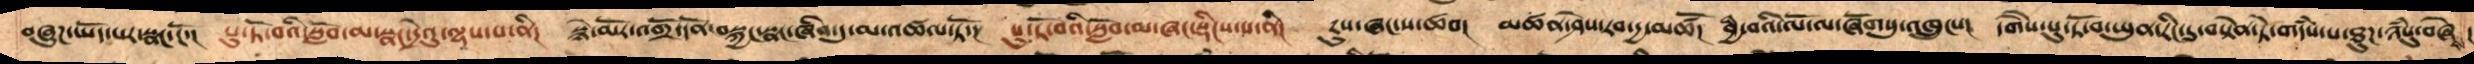བཞུཌ་ཡོད་པར་སྣང་ངོ་།  པུ་ཏོ་བའི་སློབ་མ་སྣང་དྲེའུ་ལྷས་པ་ནི།  སྙེ་མོར་འགྲོ་དོན་བསྐྱངས་སྣང་ཞིབ་དུ་མ་འཚལ་ཏོ།  པུ་ཏོ་བའི་སློབ་མ་ཞང་སྡིངས་པ་ནི།  རུས་ཞང་པ་ཚབ།  མཚན་ཤེས་རབ་དྱམཚོ།  བྱི་བའི་ལོ་ལ་ཞོགསུ་འཁྲུངས།  དགཻས་པུ་ཏོ་བ་ཡུན་རིང་དུ་བསྟེན་ཏེ་གདཾས་པ་ཐུཌ་ཉཾསུ་བཞེས།
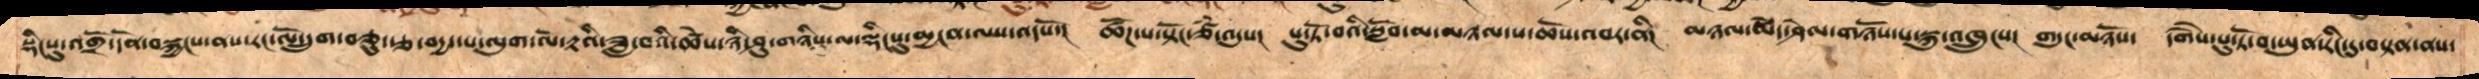སྡིང་དུ་འགྲོ་དོན་བསྐྱངས་ནས་རང་ལོ་དྲུག་ཅུ་རྩ་བདྱད་པ་ལུག་ལོ་རྟའི་ཟླ་བའི་ཚེས་ཉི་ཤུ་གཉིས་ལ་ལྡིང་དུ་མྱངན་ལས་འདསོ།  ཚོཌ་པ་སྟོང་ཙཾ་འདུས།  པུ་ཏོ་བའི་སློབ་མ་མཉལ་པ་ཆོས་འབར་ནི།  མཉལ་སྨེད་ཤེལ་གཉོས་པ་སྐུ་འཁྲུངས།  གདུང་གཉོས།  དགཻས་པུ་ཏོ་བ་ཡུན་རིང་དུ་བསྟན་ནས་
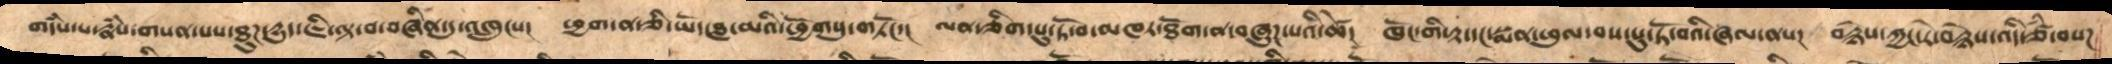གདཾས་པ་རྣཾས་གསན་པས་ཐུཌ་དྱུད་ཇི་ལྟ་བ་བཞིན་དུ་འཁྲུངས།  ཕྱག་ན་ཅི་ཡོད་བླ་མའི་ཕྱོགསུ་གཏོང་།  ལན་ཅིག་པུ་ཏོ་བ་མཁར་ཐོག་ན་བཞུཌ་པའི་ཚེ།  ཁོང་གིས་རྟ་དང་སྨན་ཕུལ་བས་པུ་ཏོ་བའི་ཞལ་ནས།  བརྙེས་ཀྱང་རེ་བརྙེས་འདི་ཙཾ་བསཌ
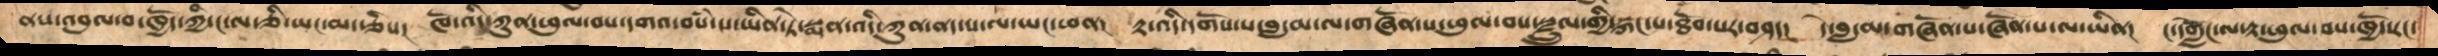ནས་འབུལ་བ་ཁྱོད་ཀྱིས་ང་ལ་ཅིར་ཡང་མ་རྩིས།  ཁོ་འདི་ཀུན་ཕུལ་བས་དགའ་བསཾ་པ་ཡིན་ཏེ་སྨན་འདི་ཀུན་ནད་པ་ལ་ཡང་ཕན།  རྟ་འདི་དགོས་པ་བླ་མ་ལ་གཞོན་པ་ཕུལ་བས་སྫྲུལ་གྱི་རྐང་པ་ཐོབ་པར་བཤད།  དེ་བླ་མ་གཞོན་པ་ཞོན་པ་ལ་ཡིན།  ང་དགླེོང་ལ་རྟ་ཕུལ་བས་ཁྱོད་རང་
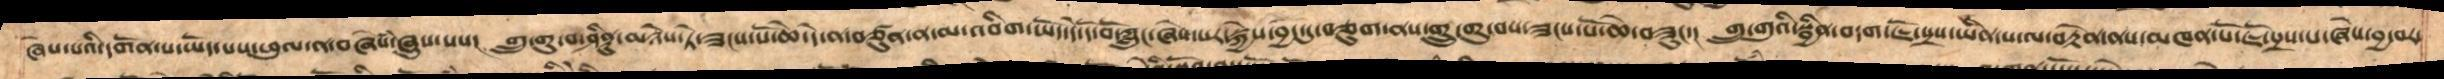ཞེས་པའི་དགོན་པ་ཡོད་པས་ཕུལ་ན་བཞེསཾ་ཞུས་པས། གྲུ་གུ་བ་ཤིནྟུ་མཉེས་ཏེ་ཟངས་པོ་ཆེ་དེ་ན་བཙུན་ན་མ་འབིག་ཡོདདེ་དོ་བོ་ཀླུང་ཞེས་པར་སྐྱེས་བྱང་དུ་བཅུག་ནས་གྲུ་གུ་བས་ཟངས་པོ་ཆེ་བཟུང་། གྲུ་གུའི་སྦྱིན་བདག་ཇོ་སྲས་ཡིན་པ་ལ་བརྟེན་ནས་མཁན་པོ་ཇོ་སྲས་པ་ཞེས་བྱ་བར་
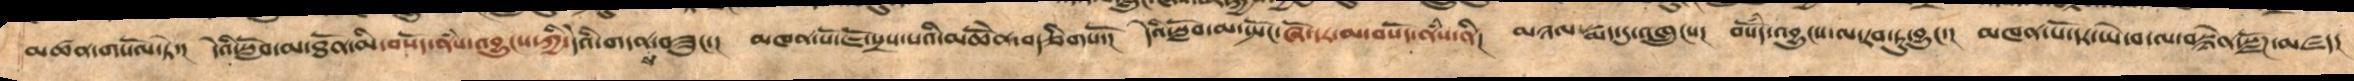མཚན་གསོལ་ཏེ་།  དེའི་སློབ་མ་ཐོན་མི་བསོད་ནཾས་འབྱུངས་ཀྱི་དེའི་གདན་ས་བཟུང་།  མཁན་པོ་ཇོ་སྲས་པའི་མཆོེན་བརྩིགསོ་།  དེའི་སློབ་མ་སྤོང་ཞོ་དར་མ་བསོད་ནཾས་ནི། མཉལ་སྨད་དུ་འཁྲུངས།  བསོདཾ་འབྱུངས་ལ་རབ་ཏུ་བྱུང་།  མཁན་པོ་དར་ཡེ་བ་ལ་བསྙེན་སྫོཌ་མཛད།
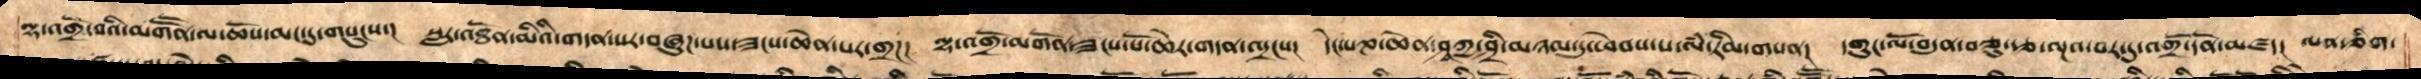ལྷ་འགྲོ་བའི་མགཽན་ལ་ཆོས་མང་དུ་གསུངས་།  སླར་འཐོན་མིའི་གདན་སར་བཞུཌ་པས་ཟངས་ཆེན་པར་གྲཌ།  ལྷ་འགྲོ་མགོན་ཟངས་པོ་ཆེར་གདན་འདྲངས།  དེང་པཎ་ཆེན་ཤཱཀྱ་ཤྲི་མཉལ་དུ་ཕེབས་པ་ལཾ་རིམ་གསན།  དགུང་ལོ་བདུན་བཅུརྩ་ལྔའ་བར་དུ་འགྲོ་དོན་མཛད། ལན་ཅིག་
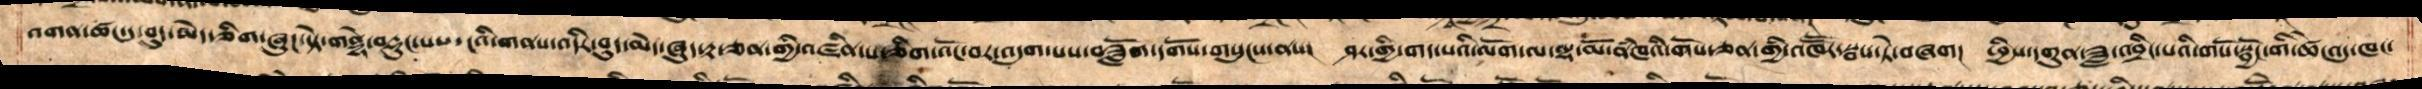འགན་ཚང་དུ་བུད་མེད་གཅིག་ཞུཌ་སྟེ་གནྡྷེ་བརྡུང་པས་ངའི་གནས་འདིར་བུད་མེད་ཞུད་རྟ་ཅན་གྱི་འཛིན་པ་ཅིག་འོང་བར་བདག་འདུག་པས་བཟློག་དགོས་གསུངས་ནས།  ཤར་གྱི་གད་པའི་ལོག་ལ་ལྷ་མོ་ནཾཁའི་གོས་ཅན་གྱི་འཁཽར་སྦས་ཏེ་བཞག།  ཕྱིས་དགུན་ཟླ་འབྲིང་པའི་གསོ་སྦྱོང་གི་ཚེ་འདུ་ཁང་
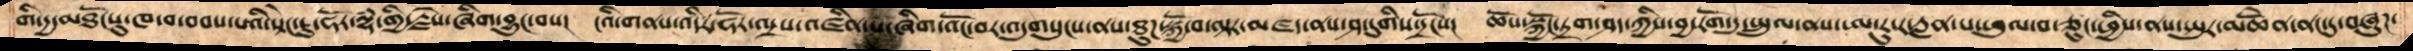གི་དྱ་མཐོངསུ་ཁ་བ་བབས་པའི་སྟེང་ཏུ་ཧོར་ལྷཾ་གྱི་རྗེས་ཞིག་བྱུང་བས།  ངའི་གནས་འདིར་ཧོར་ལྲས་འཛིན་པ་ཞིག་འོང་བར་འདུགསུངས་ནས་ཐུཌ་སྐྱོ་བ་ལྟར་མཛད་ནས་ཤ་དུགིས་དྲོངས།   ཆོས་སྐྱོང་དྲག་ཤད་ཀྱིས་བྱ་རོག་དུ་སྤྲུལ་ནས་ཨ་རུ་ར་རླན་པ་ཕུལ་བ་ཅུང་ཕྱིས་ནས་སྤུར་མཆོནེ་ནང་དུ་བཞུཌ་
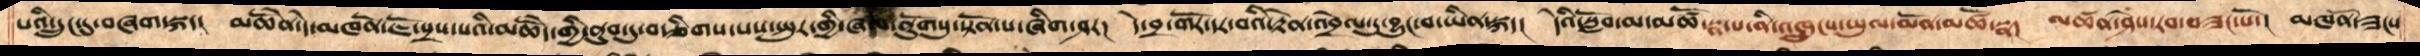པའི་དྲུང་དུ་བཞག་སྐད།  མཆོེན་དེ་མཁནོ་ཇོ་སྲས་པའི་མཆོདེ་གྱི་ནུབ་དུ་བརྩིགས་པས་སྤུར་གྱི་ཁ་དོག་ནོུགསུ་སྟོན་པ་ཞིག་ཤར།  དེ་བྲ་གོར་དར་བའི་རྟེན་འབྲེལ་དུ་བྱུང་བ་ཡིན་སྐད།  དེའི་སློབ་མ་མཚོ་སྣ་པ་ནི་འཁྲུངས་ཡུལ་འཁྲུངས་ཡུལ་མོན་མཚོ་སྣ།  མཚན་ཤེས་རབ་བཟང་པོ།  མཁནོ་ཟངས་
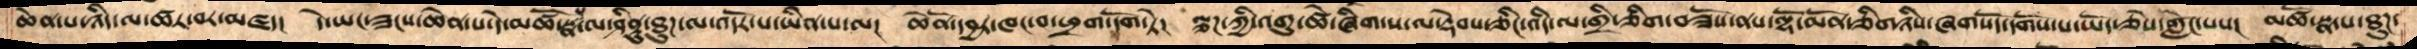ཆེན་པ་ཉིད་ལ་ཚར་བར་མཛད།  དེ་ཡང་ཟངས་ཆེན་པ་མཚོ་སྣ་ལ་ཤིནྟུ་ཐུཌ་ལ་འདོར་པ་ཡིན་པ་ལ།  ཆེནོ་དབྱར་ཁང་བ་ཕྲག་དོག་ཏེ།  ལྕཌ་ཀྱི་མགུ་ཚེ་ཞིག་ས་ལ་རྡེབས་ཅིང་འདི་ལ་གྲི་ཅིག་བཟོས་ནས་ལྷོ་མོན་ཅིགཉིས་ཞགསོད་དགོས་ཅེས་གླེང་པས།  མཚོ་སྣ་པ་ཐུཌ་
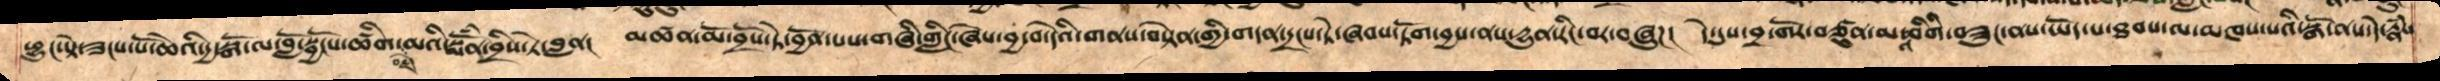ཕྱུང་སྟེ་ཟངས་པོ་ཆེའི་དྱ་སྒོ་ལ་བློ་སྦྱོངས་ཚིག་བརྗོད་མའི་སྨོནཾ་བྲིས་ཏེ་བླན།  མཚན་མོ་བྲོས་ཏེ་བྱོན་པས་གཞི་གླིང་ཞེས་བྱ་བ་དེའི་གནས་བསྟེན་གྱི་གདན་དྲངས་ཏེ་ཞབས་ཏོག་བྱས་ནས་དྱུན་རིང་བར་བཞུཌ།   དེ་དུས་བྲ་གོར་བཙུན་མའི་འབིགི་བཟུང་ནས་ཡོད་པ་ཐབས་ལ་མཁས་པའི་སྒོ་ནས་དེ་རྣཾས
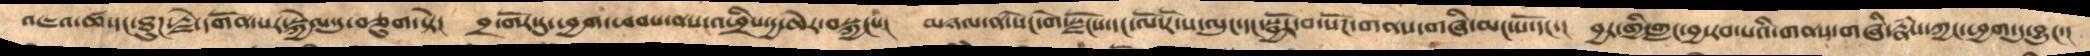འཇའ་ཚ་དང་ཐུཌ་རྗེ་དགོན་པར་སྐྱེལ་དུ་བཅུག་སྟེ།  བྲ་གོར་དུ་ཕྱག་ཕབས་ནས་འཕྲིས་ཆེར་བསྐྱངས།  མཉལ་ན་སེང་གེ་སྫོངས་དང་ལོ་རོ་ས་ལུང་དང་སྦྱོར་བ་སོཌ་གནས་གཞི་མང་པོ་དང་།  བྱར་གྱི་གླང་བྱ་རབ་པའི་གནས་གཞི་རྣཾས་ཀྱང་ཕྱག་དུ་བྱུང་།
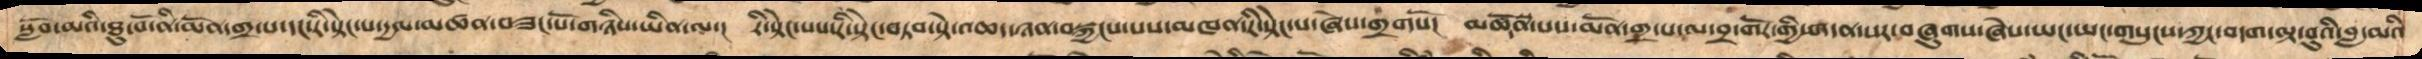སློབ་མའི་ཐུ་བོ་ནི་མོན་གྲ་པ་དང་རི་སྟེང་པ་དྱལ་མཚན་བཟང་པོ་གཉིས་ཡིན་ལ།  རི་སྟེང་པས་རི་སྟེང་བཏབ་སྟེ་འཆད་ཉན་བསྐྱངས་པས་མཁན་རི་སྟེང་པ་ཞེས་གྲགསོ།  མཚོ་སྣ་པས་མོན་གྲ་པ་ལ་བྲ་གོར་གྱི་གདན་སར་བཞུགས་ཞེས་ཡང་ཡང་གསུངས་ཀྱང་བདག་ལྟ་བུའི་བླ་མའི
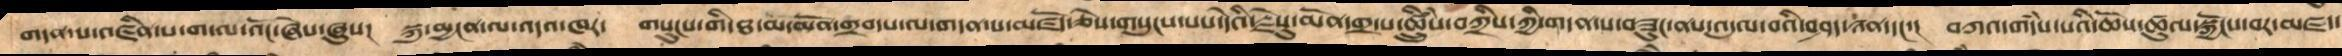གདན་ས་འཛིན་པ་ག་ལ་འོང་ཞེས་ཞུས།  སྐུ་མྱངན་ལ་འདའ་ཁར་ གསུངས་གི་ཐ་མ་མོན་གྲབ་པ་ལ་གདན་ས་མཛོད་ཅེས་གསུངས་པས་དེའི་རྗེསུ་མོན་གྲ་པ་ཚྲིུཾས་བཀྲིས་ཀྱི་གདན་ས་བཟུང་ནས་འདུལ་བའི་བཤད་ཉན་དང་།  བཀའ་གདཾས་པའི་ཆོས་ཚུལ་སྐྱོངས་བར་མཛད།
